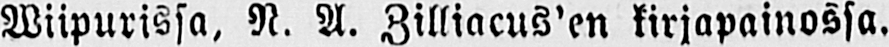Wiipurissa, N. A. Zilliacus’en kirjapainossa,
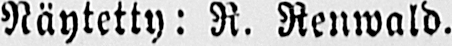Näytetty: R. Renwald.
